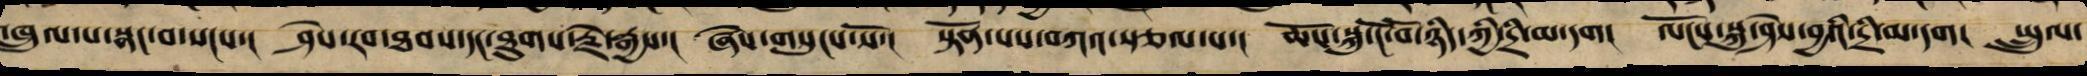འཁྲུལ་པའི་སྣང་བ་སངས་། ཤེས་རབ་ཐབས་དང་ཐུགས་རྗེ་རྒྱས་། ཞེས་གསུངས་སོ་། སྟོན་པས་བཀའ་སྩལ་པ་། ཆོས་སྐུ་ངོ་བོ་ཉིད་ཀྱིས་དྲི་མ་དག། ལོངས་སྐུ་ཤེས་བྱའི་དྲི་མ་དག། སྤྲུལ་
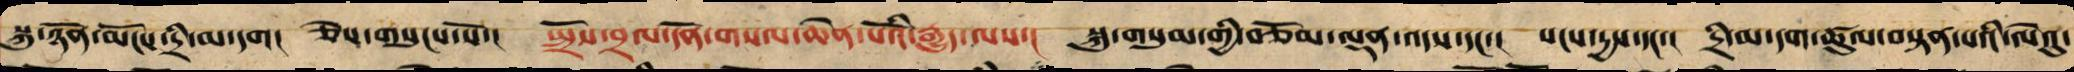སྐུ་ཉོན་མོངས་དྲི་མ་དག། ཅེས་གསུངས་སོ་། སྤྲོས་བྲལ་དོན་གསལ་ཆེན་པོའི་རྒྱུད་ལས་། སྐུ་གསུམ་གྱི་བཅོམ་ལྡན་འདས་དང་་ སངས་དྱས་དང་། དྲི་མ་དག་ཚུལ་བསྟན་པའི་ལེའུ་
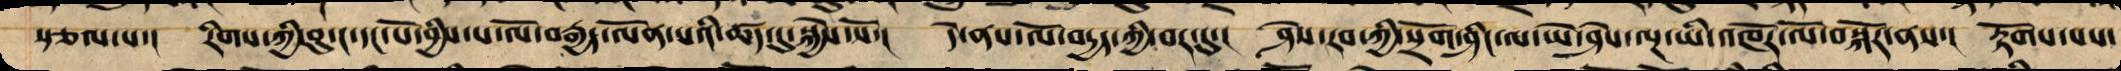སྩལ་པ་། རིགས་ཀྱི་བུ་ང་དང་པོ་བྱིས་པ་ལོ་བརྒྱད་ལོན་པའི་ཚད་དུ་སྐྱེས་སོ་། དེ་ནས་ལོ་བདྱད་ཀྱི་བར་དུ་། ཤེས་རབ་ཀྱི་སྲོག་ཤིང་ལ་ཡེ་ཤེས་ལྔ་ཡི་འཁོར་ལོ་བསྐོར་ནས་། རྟོགས་པས་
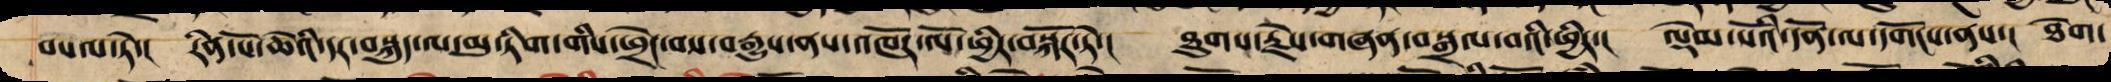བསལ་ཏེ་། རིན་པོ་ཆེའི་དར་བསྐུད་ལ་མུ་ཏིག་གི་ཕྲེང་བས་བརྒྱུས་ནས་འཁོར་ལོ་ཕྱིར་བསྐོར་ཏེ་། ཐུགས་རྗེས་གཞན་བསྒྲལ་པའི་ཕྱིར་། ལྡེམ་པོའི་དོན་ལ་དགོངས་ནས་། ཐེག་
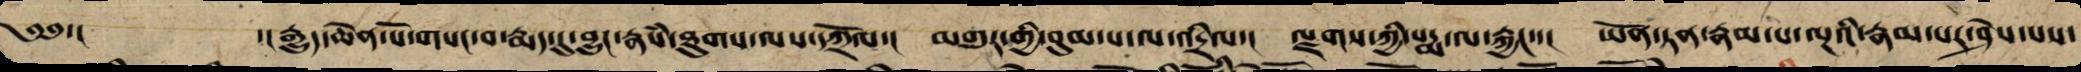༄༅་།  ་།རྒྱུད་ཆེན་པོ་གསང་བ་རྨད་དུ་བྱུང་བ་རྣཾས་ཐུགས་ལས་བཀྲོལ་། མགུར་གྱི་བུམ་པ་ལ་འདྲིལ་། ལྗགས་ཀྱི་པདྨ་ལ་རྐྱང་་། ཡོན་ཏན་རྣམ་པ་ལྔའི་རྣམ་པར་ཤེས་པས་
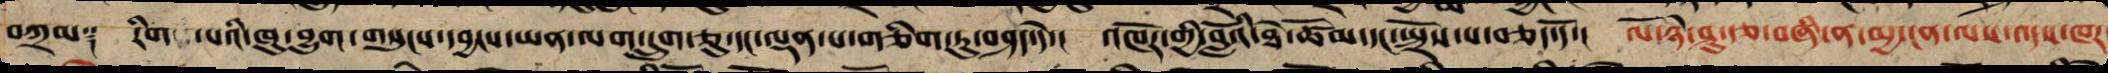བཀྲམ༑ རིག་པའི་ཁུ་བྱུག་གསུངས་དབྱངས་ཡན་ལག་དྲུག་ཅུ་དང་ལྡན་པ་གཅིག་ཏུ་བཤད་དེ་། འཁོར་གྱི་བློའི་ཐེ་ཚོམ་དང་སྤྲོས་པ་བཅད་དོ་། ལོ་ཉི་ཤུ་རྩ་བཞིན་མྱ་ངན་ལས་འདས་ཁར
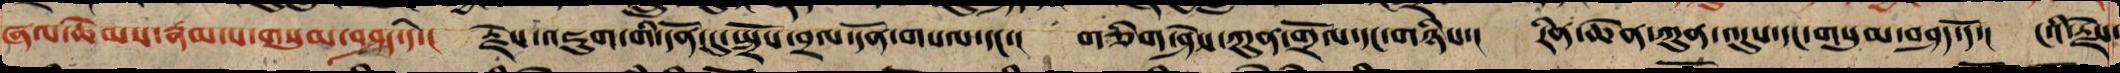ཞལ་ཆེམས་རྣམ་པ་གསུམ་བཤད་དོ་། རྗེས་འཇུག་གི་དོན་དུ་སྤྲོས་བྲལ་དོན་གསལ་དང་གཅིག། གཅིག་ཤེས་ཀུན་གྲོལ་དང་གཉིས་། རིན་ཆེན་ཀུན་འདུས་དང་གསུམ་བཤད་དོ་། ངའི་རྗེས་
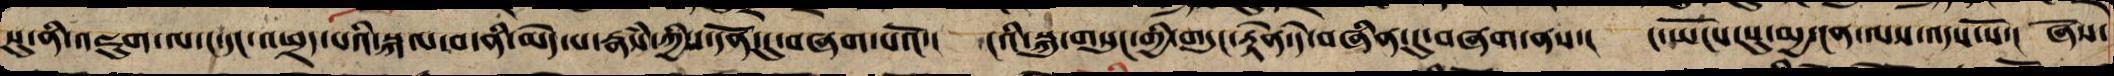སུ་ནི་འཇུག་ལ་ང་དང་འཕྲད་པའི་སྐལ་བ་ནི་མེད་པ་རྣཾས་ཀྱི་དོན་དུ་བཞག་པའོ་། ངའི་སྐུ་གསུང་གྱི་གདུང་རྟེན་དེ་བཞིན་དུ་བཞག་ནས་། ང་ཡོངས་སུ་མྱ་ངན་ལས་འདས་སོ་། ཞེས་
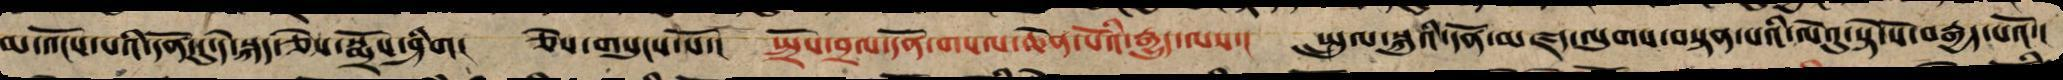མ་འོངས་པའི་དོན་དུ་དེ་སྐད་ཅེས་སྨྲོས་ཤིག། ཅེས་གསུངས་སོ་། སྤྲོས་བྲལ་དོན་གསལ་ཆེན་པོའི་རྒྱུད་ལས་། སྤྲུལ་སྐུའི་དོན་མཛད་ལུགས་བསྟན་པའི་ལེའུ་སྟེ་སོ་བརྒྱད་པའོ་།།
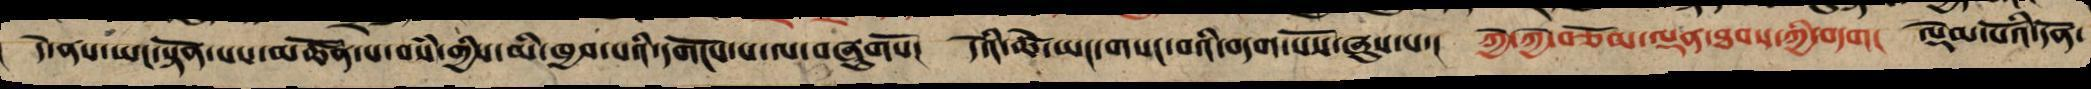དེ་ནས་ཡང་སྟོན་པས་མཚོན་པ་བསཾ་གྱིས་མི་ཁྱབ་པའི་དགོངས་པ་ལ་བཞུགས་སོ་། དེའི་ཚེ་ཡང་གསང་བའི་བདག་པོས་ཞུས་པ་། ཀྱེ་ཀྱེ་བཅོམ་ལྡན་ཐབས་ཀྱི་བདག། ལྡེམ་པོའི་དོན་
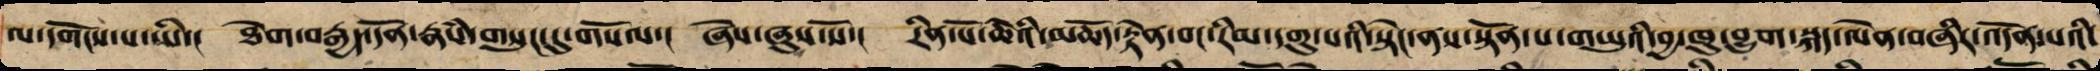ལ་དགོངས་པ་ཡི་། ཐེག་བརྒྱད་དོན་རྣཾས་གསུང་དུ་གསོལ་། ཞེས་ཞུས་སོ་། རིན་པོ་ཆེ་མཆོད་རྟེན་བང་རིམ་དགུ་པའི་སྟེང་ནས་སྟོན་པ་གཡུའི་བྱ་ཁུ་བྱུག་སྐད་ལན་བཞིན་འདོན་པའི་
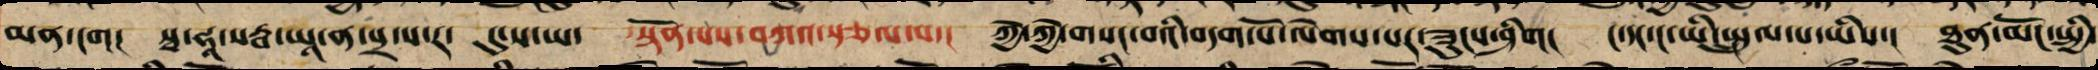མན་ངག། སྭ་ཧཱ་སརྦ་ཡཱ་ན་པྲ་ས་ར་ དུ་ས་ཡ་། སྟོན་པས་བཀའ་སྩལ་པ་། ཀྱེ་ཀྱེ་གསང་བའི་བདག་པོ་ལེགས་པར་ཟུང་ཞིག། ང་དང་ང་ཡི་སྤྲུལ་པ་ཡིས་། ཐུན་མོང་སྤྱི་
